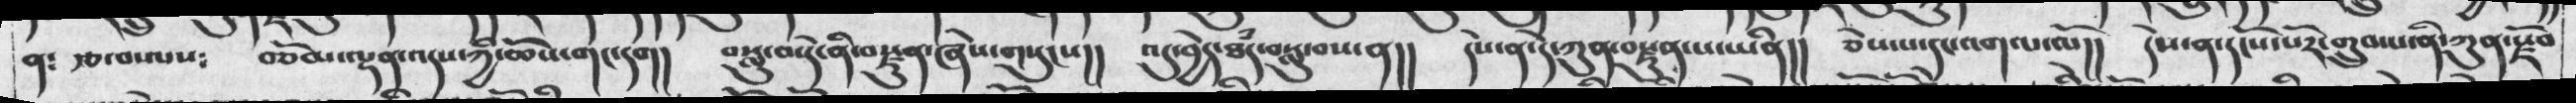ན༴   རྩ་བ་ལས༴   བཅོམ་ལྡན་འདས་ཀྱི་ཆོས་གང་དག།   བསླུ་བ་དེ་ནི་བསྫུན་ཞེས་གསུངས།།   འདུ་བྱེད་ཐཾད་བསླུ་བས་ན།།  དེས་ན་དེ་ཀུན་བསྫུན་པ་ཡིན།།  ཅེས་པ་དང་འགལ་ལོ།།   དེས་ན་དངོས་པོར་གྲུབ་པ་ནི་ཀུན་སྫོབ་
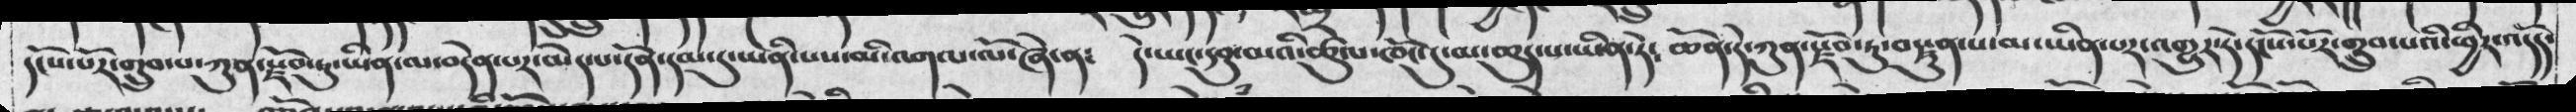དངོས་པོར་གྲུབ་པ་ཀུན་སྫོབ་ཏུ་ཡིན་ལ་བདེན་པར་མེད་པ་དོན་དམ་དུ་ཡིན་པས་མི་འགལ་ལོ་ཞེ་ན༴   དེ་ཡང་དབུ་མའི་ཚུལ་ཁོང་དུ་མ་ཆུད་པ་ཡིན་ཏེ༴   ཆོས་དེ་ཀུན་སྫོབ་ཏུ་བརྫུན་པ་མ་ཡིན་པར་འགྱུར་ཏེ་དངོས་པོར་གྲུབ་པའི་ཕྱིར་འདོད་
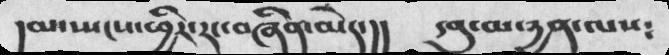།མ་སྤངས་ཕྱིར་རང་བཞིན་མེད་།།    དབུ་མ་དྱན་ལས༴
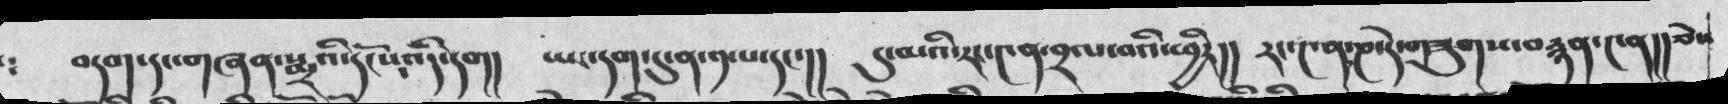བདག་དང་གཞན་སྨྲའི་དངོས་འདི་དག།    ཡང་དག་དུ་ན་༡་པ་དང་།།   དུ་མའི་རང་༤ན་བྲལ་བའི་ཕྱིར།།  རང་༤ན་ཎ་དེ་གཟུགས་བརྙན་༤ན།།ཅེས
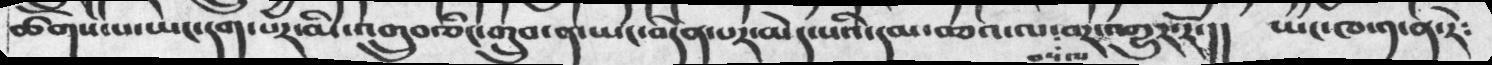ཚོགས་པ་ཡང་དག་པར་མི་འགྲུབ་ཅིང་གྲུབ་ན་ཡང་བདེན་པར་མེད་པའི་དམ་བཅའ་ལ་བསལ་བར་འགྱུར་རོ་།།  ཡང་ཁ་༡་ན་རེ༴
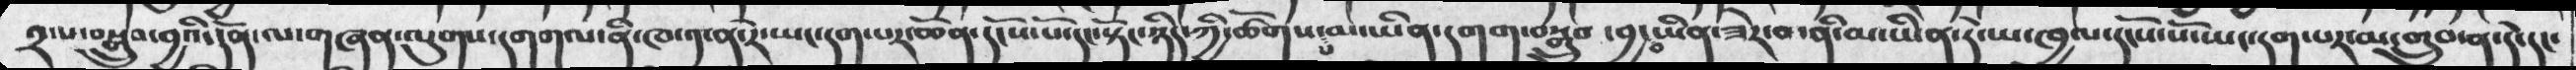༢་པ་བསྒྲུབ་བྱའི་དོན་གཞན་ལུགས་དགག་པ་ནི་ཁ་༡་ན་རེ་ཡང་དག་པར་ཆོན་དངོས་པོ་དང་སྟོང་ཉིད་ཀྱི་ཚོགས་པ་མ་ཡིན་དགག་བསྒྲུབ ་བྱ་བ་ཡིན་ཟེར་བ་ནི་མ་ཡིན་དེ་ཡ་ཁྱལ་དངོས་པོ་ཡང་དག་པར་མ་གྲུབ་ན་དེ་དང་
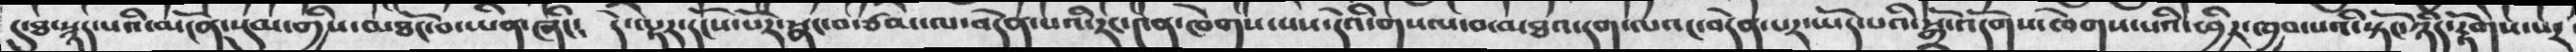དུ་ཐ་སྙད་པའི་མངོན་སུམ་གྱིས་མཐོང་བ་ཡིན་ཞིང་༴  དེ་ལྟར་དངོས་པོར་སྣང་བ་རྩམ་ལ་བདེན་པའི་རང་༤ན་ཁེགས་པས་དེའི་གསལ་བ་མཐའ་དག་ལའང་བདེན་པར་ཡོད་པའི་སྒྲོ་འདོགས་ཁེགས་པའི་ཕྱིར་ཁྱབ་པའི་སྟོང་ཉིད་རྟོགས་པར
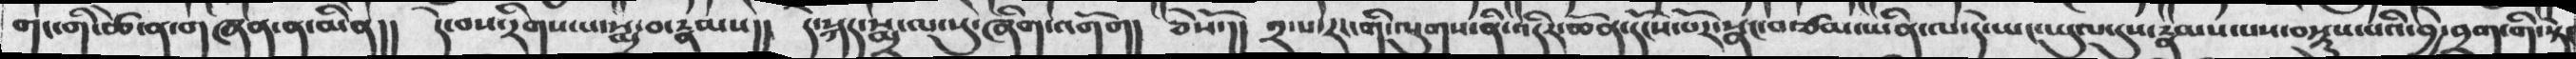གང་གི་ཚེ་ན་གཞན་ན་མིན།།   དེ་བས་རིགས་པ་སྨྲ་བ་རྣམས།།   དེ་སྐད་སྨྲ་ལ་སུ་ཞིག་འགོག།  ཅེསོ་།།  ༢་པ་རང་གི་ལུགས་ནི་འདིར་ཆོན་དངོས་པོར་སྣང་བ་རྩམ་པ་ནི་ལ་དེ་ཡང་ཡུལ་དུ་རྣམས་པས་བསྟུས་པའི་བྱེ་བྲག་གི་སྟེ་
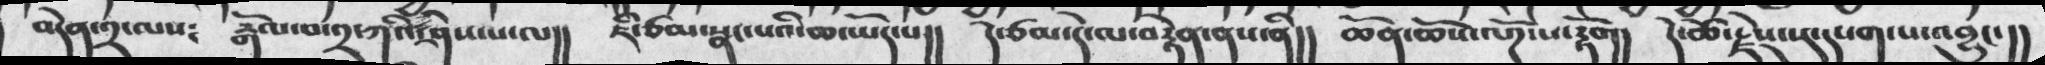བདེན་༢་ལས༴  རྒོལ་བ་༢་ཀའི་ཤེས་པ་ལ།།  ཇི་ཙམ་སྣང་པའི་ཆ་ཡོད་པ།།  དེ་ཙམ་དེ་ལ་བརྟེན་ནས་ནི།།  ཆོན་ཆོས་ལོཌ་པ་རྟོག།  དེ་ཚེ་རྗེས་སུ་དཔག་པ་འབྱུང་།།
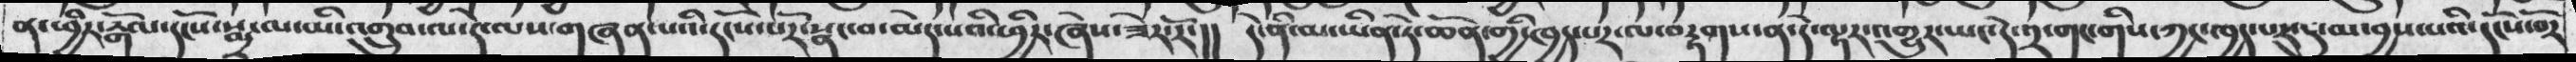ན་ཕྲིར་རྒོལ་དངོས་སྨྲ་ལ་ཡི་འགྲུབ་ལ་དེ་ལས་གཞན་པའི་དངོས་པོར་སྣང་བ་མེད་པའི་ཕྱེར་ཞེས་ཟེར་རོ་།།  དེ་ནི་མ་ཡིན་གྱི་ཁྱད་པར་ལ་བརྟགས་ན་དེ་ལྟར་འགྱུར་ཡང་དེ་༢་གང་གིས་ཀྱང་ཁྱད་པར་དུ་མ་བྱས་པའི་དངོས་པོར
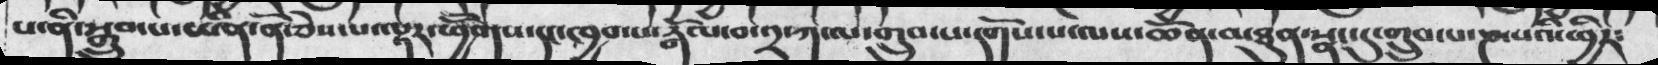ས་ནི་སྒྲུབ་པ་ཡིན་ནོ་ཅེས་པ་ལྟར་ཕྱོགས་དང་ཁྱབ་པ་རྒོལ་བ་༢་ཀ་ལ་གྲུབ་པ་དགོས་པ་ལས་ཆོན་མཐུན་སྣང་དུ་གྲུབ་པ་ཎ་པའི་ཕྱིར༴
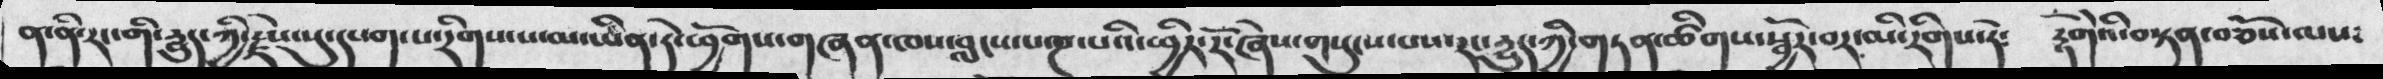ན་ནི་རང་གི་དྱུད་ཀྱི་རྗེས་སུ་དཔག་པ་རིགས་པ་མ་ཡིན་ཏེ་ཕྱོགས་གཞན་ཁས་བླངས་པ་ཎ་པའི་ཕྱིར་རོ་ཞེས་གསུངས་པས་རང་དྱུད་ཀྱི་གཏན་ཚིགས་སྦྱོར་བར་མི་རིགས་ཏེ༴   རྟོགེའི་བསྟན་བཅོས་ལས༴
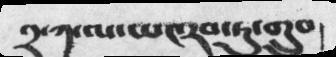༢་ཀ་ལ་ཡང་རབ་ཏུ་གྲུབ།
